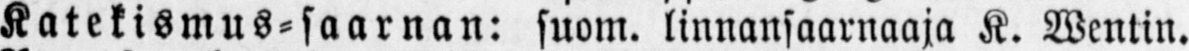Katekismus-saarnan: suom, linnansaarnaaja K. Wentin.
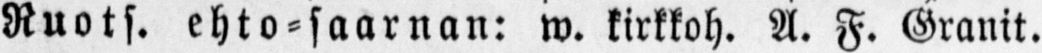Ruots. ehto-saarnan: w. kirkkoh. A. F. Granit.
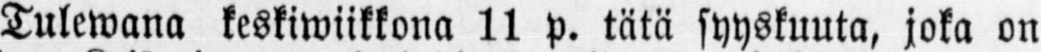Tulewana keskiwiikkona 11 p. tätä syyskuuta, joka on
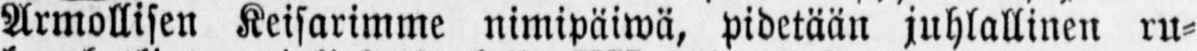Armollisen Keisarimme nimipäiwä, pidetään juhlallinen ru-
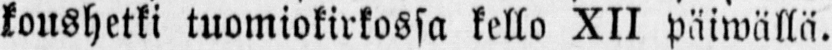koushetki tuomiokirkossa kello XII päwällä.
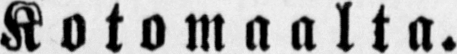Kotomaalta.
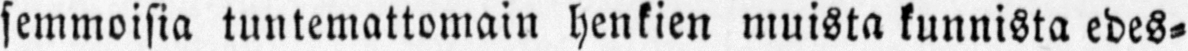semmoisia tuntemattomain henkien muista kunnista edes-
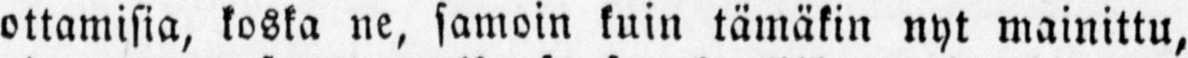ottamisia, koska ne, samoin kuin tämäkin nyt mainittu,
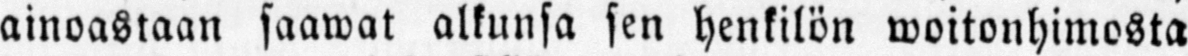ainoastaan saawat alkunsa sen henkilön woitonhimosta
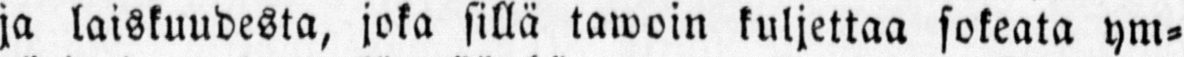ja laiskuudesta, joka sillä tawoin kuljettaa sokeata ym-
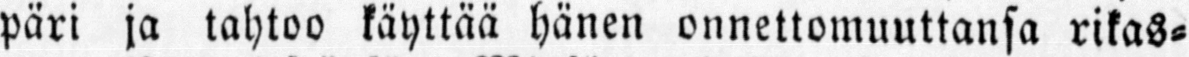päri ja tahtoo käyttää hänen onnettomuuttansa rikas-
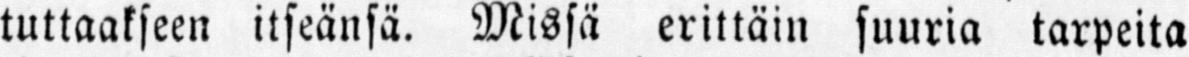tuttaakseen itseänsä. Missä erittäin suuria tarpeita
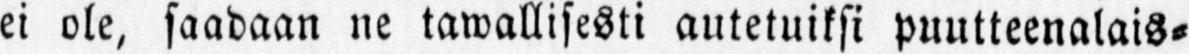ei ole, saadaan ne tawallisesti autetuiksi puutteenalais-
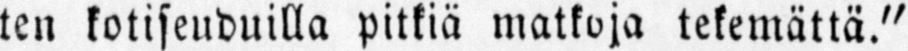ten kotiseuduilla pitkiä matkoja tekemättä."
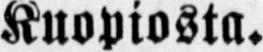Kuopiosta.
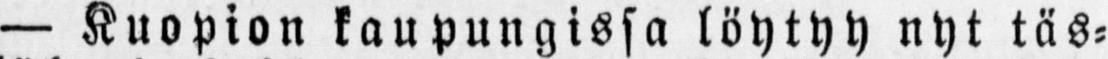— Kuopion kaupungissa löytyy nyt täs-
